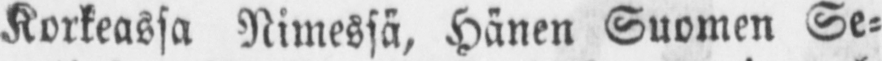Korkeassa Nimessä, Hänen Suomen Se-
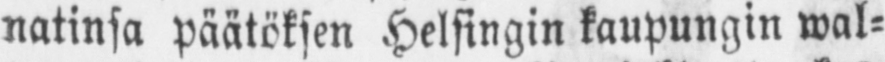natinsa päätöksen Helsingin kaupungin wal-
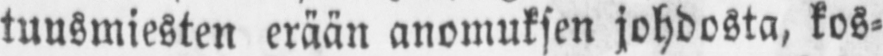tuusmiesten erään anomuksen johdosta, kos-
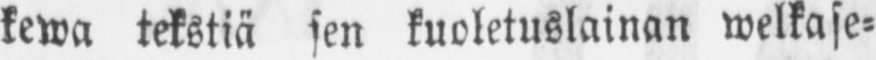kewa tekstiä sen kuoletuslainan welkase-
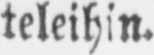teleihin.
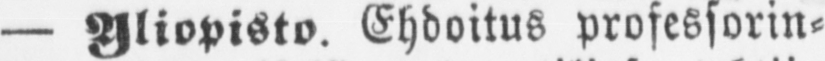— Yliopisto. Ehdoitus professorin-
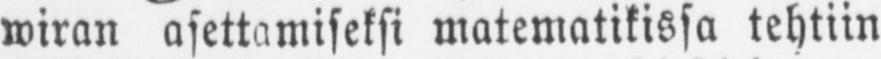wiran asettamiseksi matematikissa tehtiin
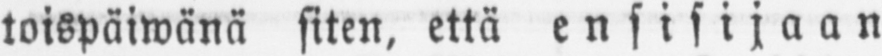toispäiwänä siten, että ensisijaan
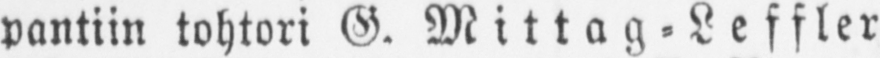pantiin tohtori G. Mittag - Leffler
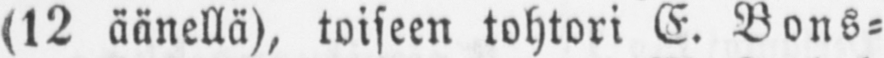(12 äänellä), toiseen tohtori E. Bons-
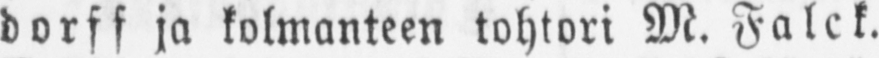dorff ja kolmanteen tohtori M. Falck.
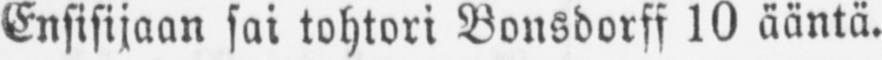Ensisijaan sai tohtori Bonsdorff 10 ääntä.
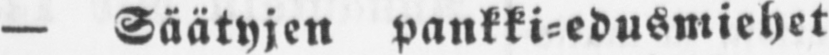— Säätyjen pankki-edusmiehet
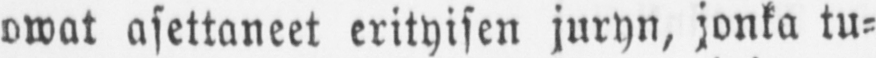owat asettaneet erityisen juryn, jonka tu-
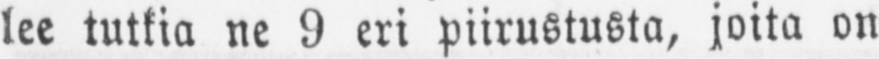lee tutkia ne 9 eri piirustusta, joita on
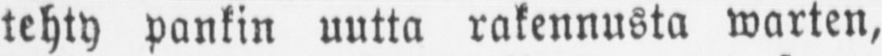tehty pankin uutta rakennusta warten,
